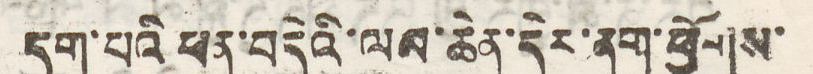དག་པའི ཕན་བདེའི་ལམ་ཆེན་དེར་ནག་ཕྱོགས་
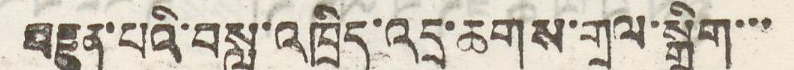བརྫུན་པའི་བསླུ་འཁྲིད་འདྲ་ཆགས་གྲལ་སྒྲིག་་་
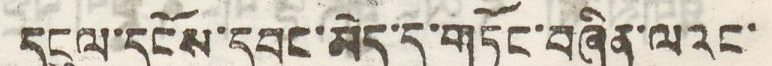དངུལ་དངོས་དབང་མེད་དུ་གཏོང་བཞིན་ལའང་
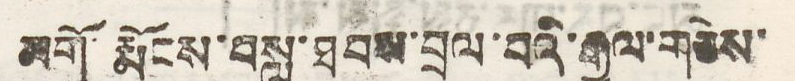མགོ་རྨོངས་བསླུ་ཐབས་བྲལ་བའི་རྒྱལ་གཅེས་
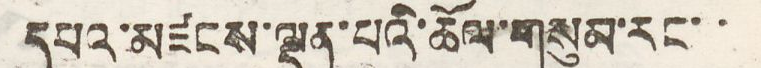དཔའ་མཛངས་ལྡན་པའི་ཆོལ་གསུམ་རང་་
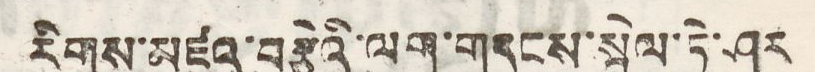རིགས་མཛའ་བརྩེའི་ལག་གདངས་སྤྲེལ་ཏེ་ཤར
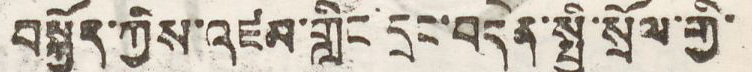བསྐྱོད་ཀྱིས་འཛམ་གླིང་དྲང་བདེན་སྤྱི་སྲོལ་གྱི་
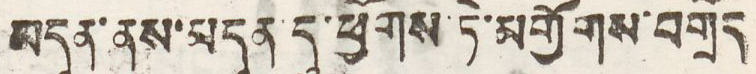མདུན་ནས་བདུན་དུ་ཕྱོགས་ཏེ་མགྱོགས་བགྲོད
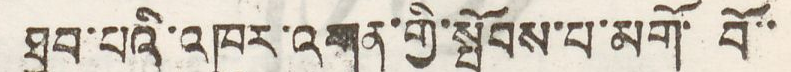ཐུབ་པའི་འཁུར་འགན་གྱི་སྤོབས་པ་མགོ་ བོ་་
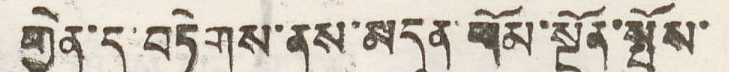གྱེན་དུ་གཏེགས་ནས་མདུན་གོམ་སྔོན་སྤོས་
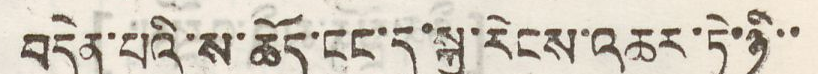བདེན་པའི་ས་ཆོད་ངང་དུ་སྐྱ་རེངས་འཆར་ཏེ་ཉི་་
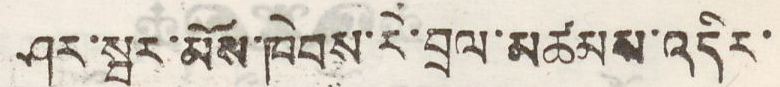ཤར་སྦར་མོས་ཁེབས་རེ་བྲལ་མཚམས་འདིར་
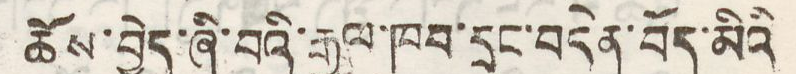ཆོས་བྱེད་ཞི་བའི་རྒྱལ་ཁབ་དྲང་བདེན་བོད་མིའི
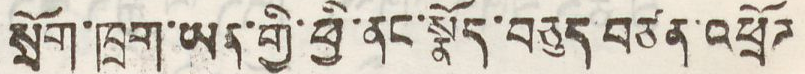སྲོག་ཁྲག་ཡན་གྱི་ཕྱི་ནང་སྣོད་བཅུད བཙན་འཕྲོཌ
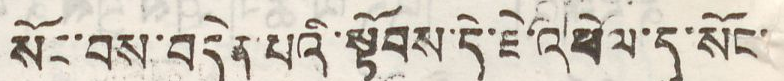སོང་བས་བདེན་པའི་སྟོབས་དེ་ཇེ་འཕེལ་དུ་སོང་
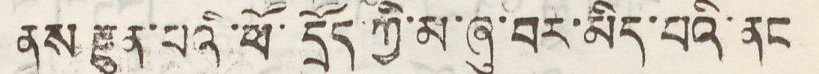ནས་རྫུན་པའི་ཕོ་དྲོད་ཀྱི་མ་ཞུ་བར་མིད་པའི་ནང
